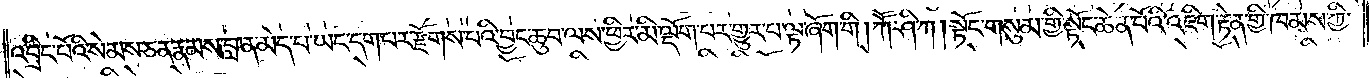འབྲིང་པོའི་སེམས་ཅན་རྣམས་བླ་ན་མེད་པ་ཡང་དག་པར་རྫོགས་པའི་བྱང་ཆུབ་ལས་ཕྱིར་མི་ལྡོག་པར་གྱུར་པ་ལྟ་ཞོག་གི། ཀཽ་ཤི་ཀ། སྟོང་གསུམ་གྱི་སྟོང་ཆེན་པོའི་འཇིག་རྟེན་གྱི་ཁམས་ཀྱི་
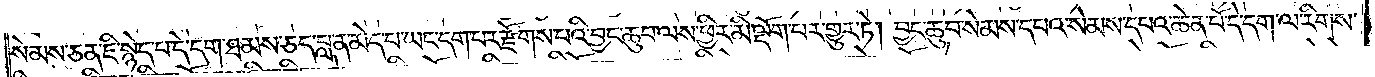སེམས་ཅན་ཇི་སྙེད་པ་དེ་དག་ཐམས་ཅད་བླ་ན་མེད་པ་ཡང་དག་པར་རྫོགས་པའི་བྱང་ཆུབ་ལས་ཕྱིར་མི་ལྡོག་པར་གྱུར་ཏེ། བྱང་ཆུབ་སེམས་དཔའ་སེམས་དཔའ་ཆེན་པོ་དེ་དག་ལ་རིགས་
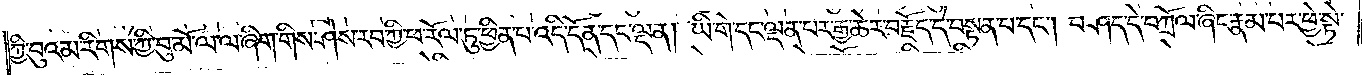ཀྱི་བུའམ་རིགས་ཀྱི་བུ་མོ་ལ་ལ་ཞིག་གིས་ཤེས་རབ་ཀྱི་ཕ་རོལ་ཏུ་ཕྱིན་པ་འདི་དོན་དང་ལྡན། ཡི་གེ་དང་ལྡན་པར་རྒྱ་ཆེར་བརྗོད་དེ་བསྟན་པ་དང༌། བཤད་དེ་བཀྲོལ་ཞིང་རྣམ་པར་ཕྱེ་སྟེ་
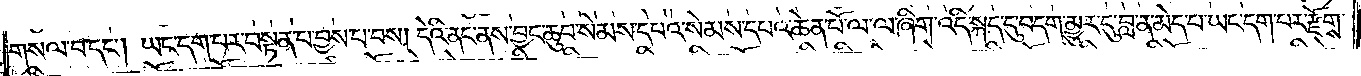གསལ་བ་དང༌། ཡང་དག་པར་བསྟན་པ་བྱས་པ་བས། དེའི་ནང་ནས་བྱང་ཆུབ་སེམས་དཔའ་སེམས་དཔའ་ཆེན་པོ་ལ་ལ་ཞིག་འདི་སྐད་དུ་བདག་མྱུར་དུ་བླ་ན་མེད་པ་ཡང་དག་པར་རྫོགས་
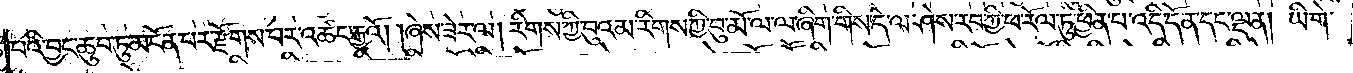པའི་བྱང་ཆུབ་ཏུ་མངོན་པར་རྫོགས་པར་འཚང་རྒྱའོ། །ཞེས་ཟེར་ལ། རིགས་ཀྱི་བུའམ་རིགས་ཀྱི་བུ་མོ་ལ་ལ་ཞིག་གིས་དེ་ལ་ཤེས་རབ་ཀྱི་ཕ་རོལ་ཏུ་ཕྱིན་པ་འདི་དོན་དང་ལྡན། ཡི་གེ་
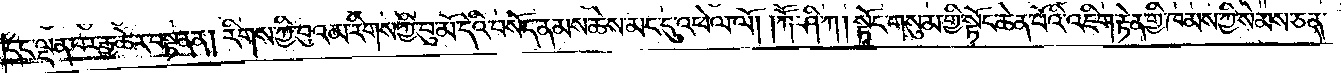དང་ལྡན་པར་རྒྱ་ཆེར་བསྟན་ན། རིགས་ཀྱི་བུའམ་རིགས་ཀྱི་བུ་མོ་དེའི་བསོད་ནམས་ཆེས་མང་དུ་འཕེལ་ལོ། །ཀཽ་ཤི་ཀ། སྟོང་གསུམ་གྱི་སྟོང་ཆེན་པོའི་འཇིག་རྟེན་གྱི་ཁམས་ཀྱི་སེམས་ཅན་
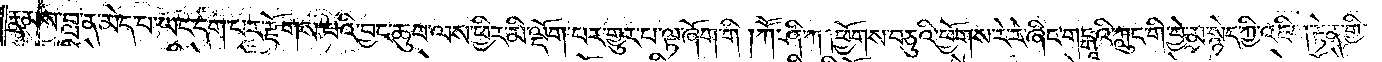རྣམས་བླ་ན་མེད་པ་ཡང་དག་པར་རྫོགས་པའི་བྱང་ཆུབ་ལས་ཕྱིར་མི་ལྡོག་པར་གྱུར་པ་ལྟ་ཞོག་གི །ཀཽ་ཤི་ཀ། ཕྱོགས་བཅུའི་ཕྱོགས་རེ་རེ་ཞིང་གངྒཱའི་ཀླུང་གི་བྱེ་མ་སྙེད་ཀྱི་འཇིག་རྟེན་གྱི་
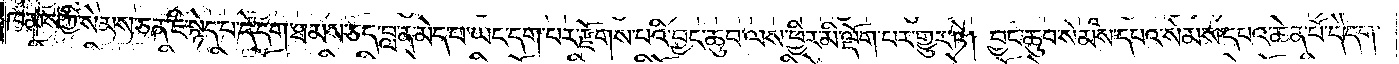ཁམས་ཀྱི་སེམས་ཅན་ཇི་སྙེད་པ་དེ་དག་ཐམས་ཅད་བླ་ན་མེད་པ་ཡང་དག་པར་རྫོགས་པའི་བྱང་ཆུབ་ལས་ཕྱིར་མི་ལྡོག་པར་གྱུར་ཏེ། བྱང་ཆུབ་སེམས་དཔའ་སེམས་དཔའ་ཆེན་པོ་དེ་དག་
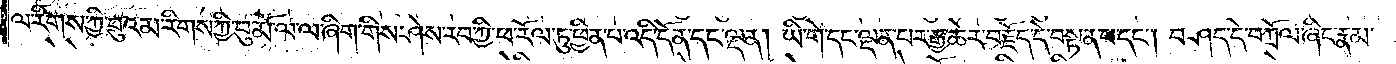ལ་རིགས་ཀྱི་བུའམ་རིགས་ཀྱི་བུ་མོ་ལ་ལ་ཞིག་གིས་ཤེས་རབ་ཀྱི་ཕ་རོལ་ཏུ་ཕྱིན་པ་འདི་དོན་དང་ལྡན། ཡི་གེ་དང་ལྡན་པར་རྒྱ་ཆེར་བརྗོད་དེ་བསྟན་པ་དང༌། བཤད་དེ་བཀྲོལ་ཞིང་རྣམ་
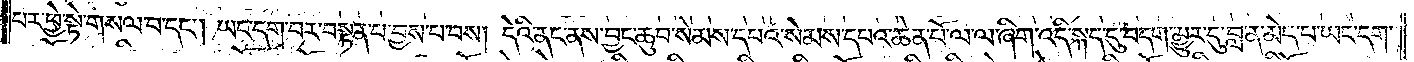པར་ཕྱེ་སྟེ་གསལ་བ་དང༌། ཡང་དག་པར་བསྟན་པ་བྱས་པ་བས། དེའི་ནང་ནས་བྱང་ཆུབ་སེམས་དཔའ་སེམས་དཔའ་ཆེན་པོ་ལ་ལ་ཞིག་འདི་སྐད་དུ་བདག་མྱུར་དུ་བླ་ན་མེད་པ་ཡང་དག་
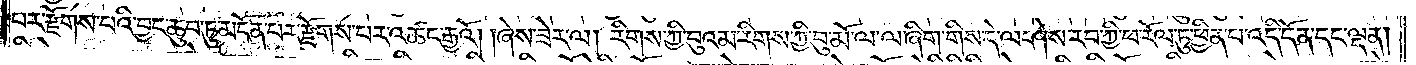པར་རྫོགས་པའི་བྱང་ཆུབ་ཏུ་མངོན་པར་རྫོགས་པར་འཚང་རྒྱའོ། །ཞེས་ཟེར་ལ། རིགས་ཀྱི་བུའམ་རིགས་ཀྱི་བུ་མོ་ལ་ལ་ཞིག་གིས་དེ་ལ་ཤེས་རབ་ཀྱི་ཕ་རོལ་ཏུ་ཕྱིན་པ་འདི་དོན་དང་ལྡན།
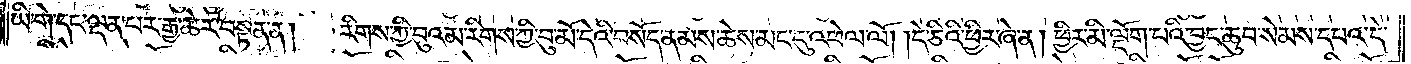ཡི་གེ་དང་ལྡན་པར་རྒྱ་ཆེར་བསྟན་ན། རིགས་ཀྱི་བུའམ་རིགས་ཀྱི་བུ་མོ་དེའི་བསོད་ནམས་ཆེས་མང་དུ་འཕེལ་ལོ། །དེ་ཅིའི་ཕྱིར་ཞེ་ན། ཕྱིར་མི་ལྡོག་པའི་བྱང་ཆུབ་སེམས་དཔའ་དེ་
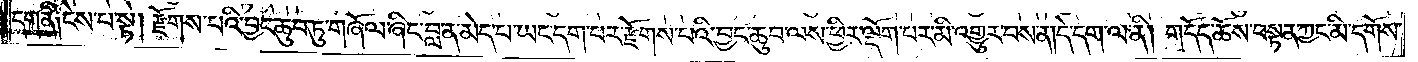དག་ནི༑ ངེས་པ་སྟེ། རྫོགས་པའི་བྱང་ཆུབ་ཏུ་གཞོལ་ཞིང་བླ་ན་མེད་པ་ཡང་དག་པར་རྫོགས་པའི་བྱང་ཆུབ་ལས་ཕྱིར་ལྡོག་པར་མི་འགྱུར་བས་ན། དེ་དག་ལ་ནི། གདོད་ཆོས་བསྟན་ཀྱང་མི་དགོས་
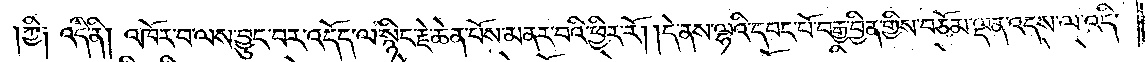ཀྱི༑ འདི་ནི། འཁོར་བ་ལས་བྱུང་བར་འདོད་ལ་སྙིང་རྗེ་ཆེན་པོས་མནར་བའི་ཕྱིར་རོ། །དེ་ནས་ལྷའི་དབང་པོ་བརྒྱ་བྱིན་གྱིས་བཅོམ་ལྡན་འདས་ལ་འདི་
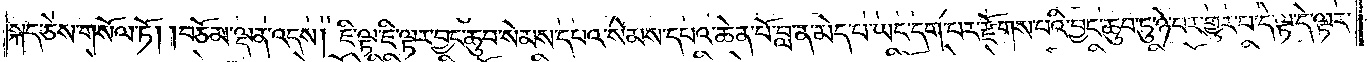སྐད་ཅེས་གསོལ་ཏེ། །བཅོམ་ལྡན་འདས། ཇི་ལྟ་ཇི་ལྟར་བྱང་ཆུབ་སེམས་དཔའ་སེམས་དཔའ་ཆེན་པོ་བླ་ན་མེད་པ་ཡང་དག་པར་རྫོགས་པའི་བྱང་ཆུབ་ཏུ་ཉེ་བར་གྱུར་པ་དེ་ལྟ་དེ་ལྟར་
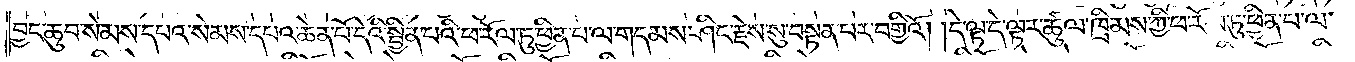བྱང་ཆུབ་སེམས་དཔའ་སེམས་དཔའ་ཆེན་པོ་དེའི་སྦྱིན་པའི་ཕ་རོལ་ཏུ་ཕྱིན་པ་ལ་གདམས་ཤིང་རྗེས་སུ་བསྟན་པར་བགྱིའོ། །དེ་ལྟ་དེ་ལྟར་ཚུལ་ཁྲིམས་ཀྱི་ཕ་རོལ་ཏུ་ཕྱིན་པ་ལ་
